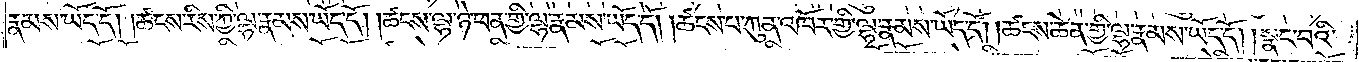རྣམས་ཡོད་དོ། །ཚངས་རིས་ཀྱི་ལྷ་རྣམས་ཡོད་དོ། །ཚངས་ལྷ་ཉེ་ཕན་གྱི་ལྷ་རྣམས་ཡོད་དོ། །ཚངས་པ་ཀུན་འཁོར་གྱི་ལྷ་རྣམས་ཡོད་དོ། །ཚངས་ཆེན་གྱི་ལྷ་རྣམས་ཡོད་དོ། །སྣང་བའི་
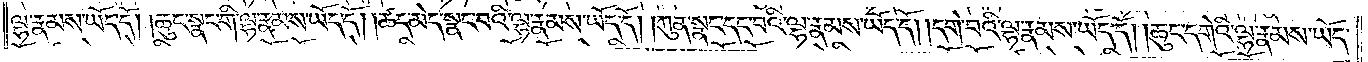ལྷ་རྣམས་ཡོད་དོ། །ཆུང་སྣང་གི་ལྷ་རྣམས་ཡོད་དོ། །ཚད་མེད་སྣང་བའི་ལྷ་རྣམས་ཡོད་དོ། །ཀུན་སྣང་དང་བའི་ལྷ་རྣམས་ཡོད་དོ། །དགེ་བའི་ལྷ་རྣམས་ཡོད་དོ། །ཆུང་དགེའི་ལྷ་རྣམས་ཡོད་
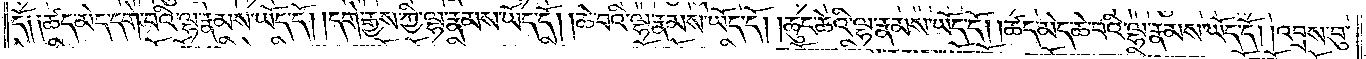དོ༑ ༑ཚད་མེད་དགེ་བའི་ལྷ་རྣམས་ཡོད་དོ། །དགེ་རྒྱས་ཀྱི་ལྷ་རྣམས་ཡོད་དོ། །ཆེ་བའི་ལྷ་རྣམས་ཡོད་དོ། །ཆུང་ཆེའི་ལྷ་རྣམས་ཡོད་དོ། །ཚད་མེད་ཆེ་བའི་ལྷ་རྣམས་ཡོད་དོ། །འབྲས་བུ་
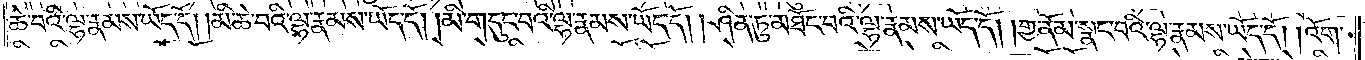ཆེ་བའི་ལྷ་རྣམས་ཡོད་དོ། །མི་ཆེ་བའི་ལྷ་རྣམས་ཡོད་དོ། །མི་གདུང་བའི་ལྷ་རྣམས་ཡོད་དོ། །ཤིན་ཏུ་མཐོང་བའི་ལྷ་རྣམས་ཡོད་དོ། །གྱ་ནོམ་སྣང་བའི་ལྷ་རྣམས་ཡོད་དོ། །འོག་
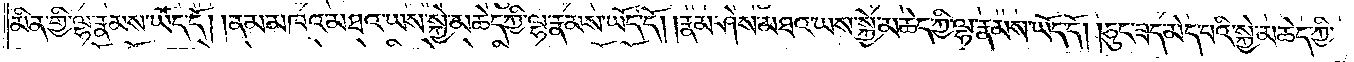མིན་གྱི་ལྷ་རྣམས་ཡོད་དོ། །ནམ་མཁའ་མཐའ་ཡས་སྐྱེ་མཆེད་ཀྱི་ལྷ་རྣམས་ཡོད་དོ། །རྣམ་ཤེས་མཐའ་ཡས་སྐྱེ་མཆེད་ཀྱི་ལྷ་རྣམས་ཡོད་དོ། །ཅུང་ཟད་མེད་པའི་སྐྱེ་མཆེད་ཀྱི་
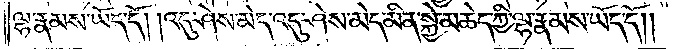ལྷ་རྣམས་ཡོད་དོ། །འདུ་ཤེས་མེད་འདུ་ཤེས་མེད་མིན་སྐྱེ་མཆེད་ཀྱི་ལྷ་རྣམས་ཡོད་དོ༎
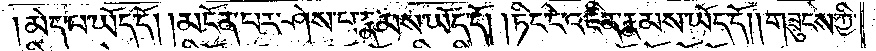མེད་པ་ཡོད་དོ། །མངོན་པར་ཤེས་པ་རྣམས་ཡོད་དོ། །ཏིང་ངེ་འཛིན་རྣམས་ཡོད་དོ། །གཟུངས་ཀྱི་
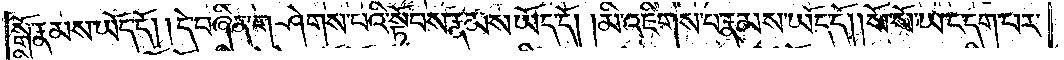སྒོ་རྣམས་ཡོད་དོ། །དེ་བཞིན་གཤེགས་པའི་སྟོབས་རྣམས་ཡོད་དོ། །མི་འཇིགས་པ་རྣམས་ཡོད་དོ། །སོ་སོ་ཡང་དག་པར་
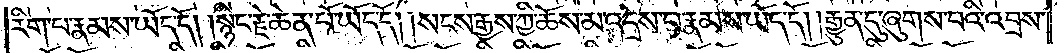རིག་པ་རྣམས་ཡོད་དོ། །སྙིང་རྗེ་ཆེན་པོ་ཡོད་དོ། །སངས་རྒྱས་ཀྱི་ཆོས་མ་འདྲེས་པ་རྣམས་ཡོད་དོ། །རྒྱུན་དུ་ཞུགས་པའི་འབྲས་
